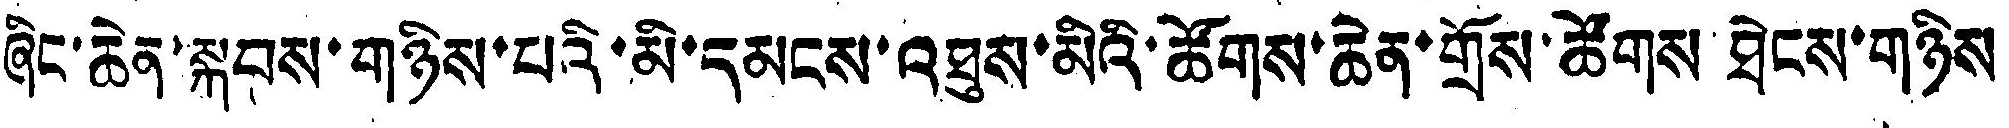ཞིང་ཆེན་སྐབས་གཉིས་པའི་མི་དམངས་འཐུས་མིའི་ཚོགས་ཆེན་གྲོས་ཚོགས ཐེངས་གཉིས
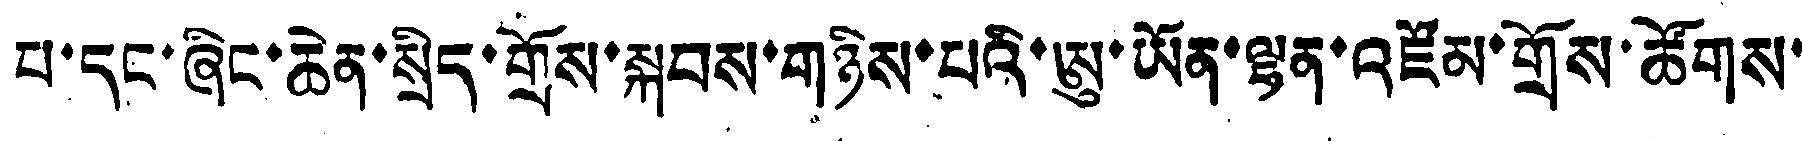པ་དང་ཞིང་ཆེན་སྲིད་གྲོས་སྐབས་གཉིས་པའི་ཨུ་ཡོན་ལྷན་འཛོམ་གྲོས་ཚོགས་
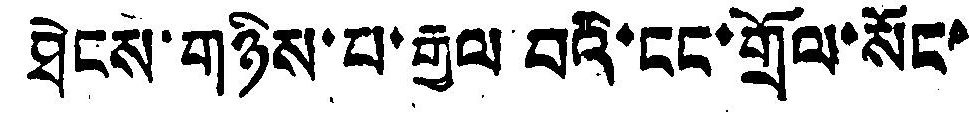ཐེངས་གཉིས་པ་རྒྱལ བའི་ངང་གྲོལ་སོང་
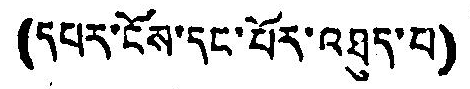(དཔར་ངོས་དང་པོར་འཐུད་པ)
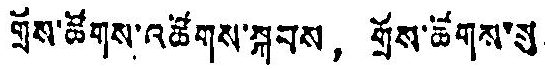གྲོས་ཚོགས་འཚོགས་སྐབས， གྲོས་ཚོགས་སུ
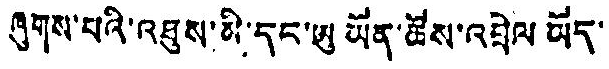ཞུགས་པའི་འཐུས་མི་དང་ཨུ ཡོན་ཚོས་འབྲེལ ཡོད་
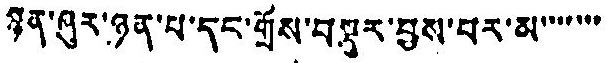སྙན་ཞུར་ཉན་པ་དང་གྲོས་བསྡུར་བྱས་པར་མ་་་་་་་
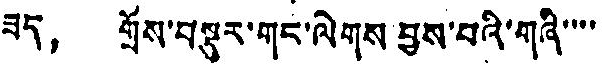ཟད， གྲོས་བསྡུར་གང་ལེགས བྱས་པའི་གཞི་་་་
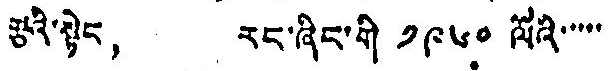རྩའི་སྟེང， རང་ཞིང་གི ༡༩༦༠ ལོའི་་་་་
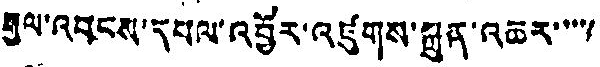རྒྱལ་འབངས་དཔལ་འབྱོར་འཛུགས་སྐྲུན་འཆར་་་་་
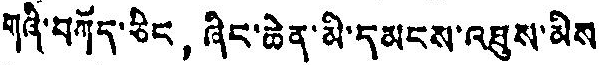གཞི་བཀོད་ཅིང， ཞིང་ཆེན་མི་དམངས་འཐུས་མིས
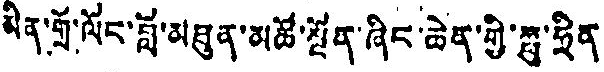མིན་གྲོ་ལོང་བློ་མཐུན་མཚོ་སྔོན་ཞིང་ཆེན་གྱི་ཧྥུ་ཧྲིན
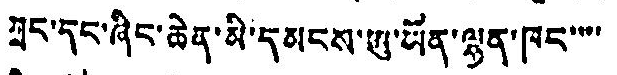ཀྲང་དང་ཞིང་ཆེན་མི་དམངས་ཨུ་ཡོན་ལྷན་ཁང་་་་
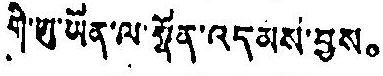གི་ཨུ་ཡོན་ལ་སྣོན་འདམས་བྱས。
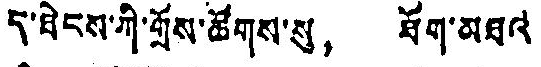ད་ཐེངས་ཀྱི་གྲོས་ཚོགས་སུ， ཐོག་མཐའ་
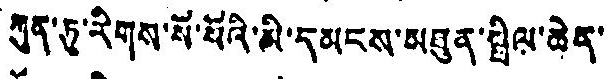ཀུན་ཏུ་རིགས་སོ་སོའི་མི་དམངས་མཐུན་སྤིལ་ཆེན་
